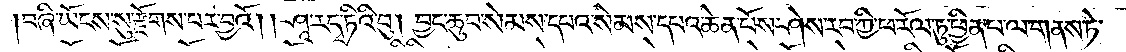བཞི་ཡོངས་སུ་རྫོགས་པར་བྱའོ། །ཤཱ་ར་དྭ་ཏིའི་བུ། བྱང་ཆུབ་སེམས་དཔའ་སེམས་དཔའ་ཆེན་པོས་ཤེས་རབ་ཀྱི་ཕ་རོལ་ཏུ་ཕྱིན་པ་ལ་གནས་ཏེ་
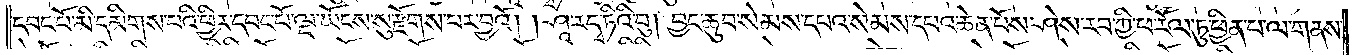དབང་པོ་མི་དམིགས་པའི་ཕྱིར་དབང་པོ་ལྔ་ཡོངས་སུ་རྫོགས་པར་བྱའོ། །ཤཱ་ར་དྭ་ཏིའི་བུ། བྱང་ཆུབ་སེམས་དཔའ་སེམས་དཔའ་ཆེན་པོས་ཤེས་རབ་ཀྱི་ཕ་རོལ་ཏུ་ཕྱིན་པ་ལ་གནས་
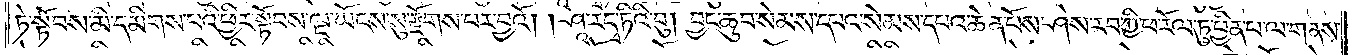ཏེ་སྟོབས་མི་དམིགས་པའི་ཕྱིར་སྟོབས་ལྔ་ཡོངས་སུ་རྫོགས་པར་བྱའོ། །ཤཱ་ར་དྭ་ཏིའི་བུ། བྱང་ཆུབ་སེམས་དཔའ་སེམས་དཔའ་ཆེན་པོས་ཤེས་རབ་ཀྱི་ཕ་རོལ་ཏུ་ཕྱིན་པ་ལ་གནས་
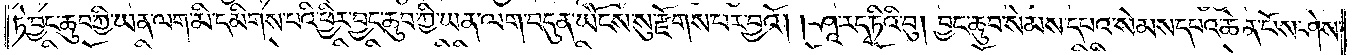ཏེ་བྱང་ཆུབ་ཀྱི་ཡན་ལག་མི་དམིགས་པའི་ཕྱིར་བྱང་ཆུབ་ཀྱི་ཡན་ལག་བདུན་ཡོངས་སུ་རྫོགས་པར་བྱའོ། །ཤཱ་ར་དྭ་ཏིའི་བུ། བྱང་ཆུབ་སེམས་དཔའ་སེམས་དཔའ་ཆེན་པོས་ཤེས་
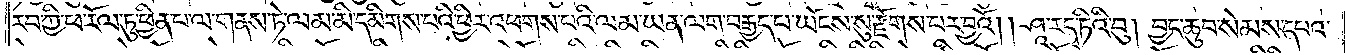རབ་ཀྱི་ཕ་རོལ་ཏུ་ཕྱིན་པ་ལ་གནས་ཏེ་ལམ་མི་དམིགས་པའི་ཕྱིར་འཕགས་པའི་ལམ་ཡན་ལག་བརྒྱད་པ་ཡོངས་སུ་རྫོགས་པར་བྱའོ། །ཤཱ་ར་དྭ་ཏིའི་བུ། བྱང་ཆུབ་སེམས་དཔའ་
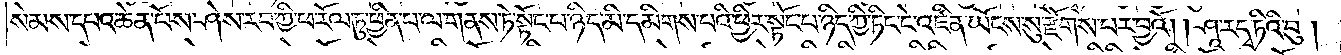སེམས་དཔའ་ཆེན་པོས་ཤེས་རབ་ཀྱི་ཕ་རོལ་ཏུ་ཕྱིན་པ་ལ་གནས་ཏེ་སྟོང་པ་ཉིད་མི་དམིགས་པའི་ཕྱིར་སྟོང་པ་ཉིད་ཀྱི་ཏིང་ངེ་འཛིན་ཡོངས་སུ་རྫོགས་པར་བྱའོ། །ཤཱ་ར་དྭ་ཏིའི་བུ།
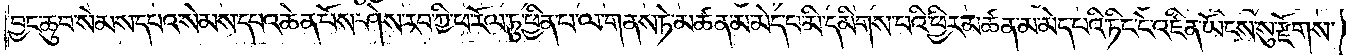བྱང་ཆུབ་སེམས་དཔའ་སེམས་དཔའ་ཆེན་པོས་ཤེས་རབ་ཀྱི་ཕ་རོལ་ཏུ་ཕྱིན་པ་ལ་གནས་ཏེ་མཚན་མ་མེད་པ་མི་དམིགས་པའི་ཕྱིར་མཚན་མ་མེད་པའི་ཏིང་ངེ་འཛིན་ཡོངས་སུ་རྫོགས་
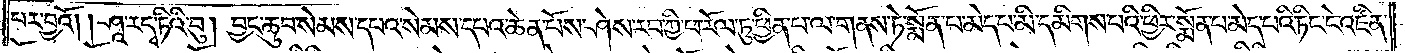པར་བྱའོ། །ཤཱ་ར་དྭ་ཏིའི་བུ། བྱང་ཆུབ་སེམས་དཔའ་སེམས་དཔའ་ཆེན་པོས་ཤེས་རབ་ཀྱི་ཕ་རོལ་ཏུ་ཕྱིན་པ་ལ་གནས་ཏེ་སྨོན་པ་མེད་པ་མི་དམིགས་པའི་ཕྱིར་སྨོན་པ་མེད་པའི་ཏིང་ངེ་འཛིན་
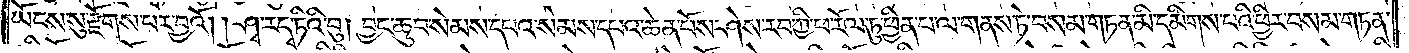ཡོངས་སུ་རྫོགས་པར་བྱའོ། །ཤྭ་ར་དྭ་ཏིའི་བུ། བྱང་ཆུབ་སེམས་དཔའ་སེམས་དཔའ་ཆེན་པོས་ཤེས་རབ་ཀྱི་ཕ་རོལ་ཏུ་ཕྱིན་པ་ལ་གནས་ཏེ་བསམ་གཏན་མི་དམིགས་པའི་ཕྱིར་བསམ་གཏན་
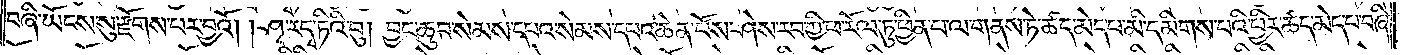བཞི་ཡོངས་སུ་རྫོགས་པར་བྱའོ། །ཤྭ་ར་དྭ་ཏིའི་བུ། བྱང་ཆུབ་སེམས་དཔའ་སེམས་དཔའ་ཆེན་པོས་ཤེས་རབ་ཀྱི་ཕ་རོལ་ཏུ་ཕྱིན་པ་ལ་གནས་ཏེ་ཚད་མེད་པ་མི་དམིགས་པའི་ཕྱིར་ཚད་མེད་པ་བཞི་
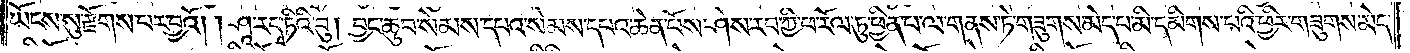ཡོངས་སུ་རྫོགས་པར་བྱའོ། །ཤཱ་ར་དྭ་ཏིའི་བུ། བྱང་ཆུབ་སེམས་དཔའ་སེམས་དཔའ་ཆེན་པོས་ཤེས་རབ་ཀྱི་ཕ་རོལ་ཏུ་ཕྱིན་པ་ལ་གནས་ཏེ་གཟུགས་མེད་པ་མི་དམིགས་པའི་ཕྱིར་གཟུགས་མེད་
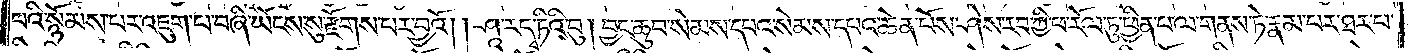པའི་སྙོམས་པར་འཇུག་པ་བཞི་ཡོངས་སུ་རྫོགས་པར་བྱའོ། །ཤཱ་ར་དྭ་ཏིའི་བུ། བྱང་ཆུབ་སེམས་དཔའ་སེམས་དཔའ་ཆེན་པོས་ཤེས་རབ་ཀྱི་ཕ་རོལ་ཏུ་ཕྱིན་པ་ལ་གནས་ཏེ་རྣམ་པར་ཐར་པ་
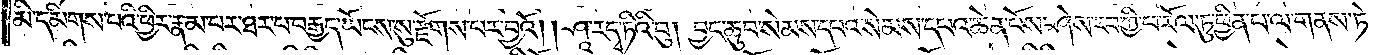མི་དམིགས་པའི་ཕྱིར་རྣམ་པར་ཐར་པ་བརྒྱད་ཡོངས་སུ་རྫོགས་པར་བྱའོ༎ ཤཱ་ར་དྭ་ཏིའི་བུ། བྱང་ཆུབ་སེམས་དཔའ་སེམས་དཔའ་ཆེན་པོས་ཤེས་རབ་ཀྱི་ཕ་རོལ་ཏུ་ཕྱིན་པ་ལ་གནས་ཏེ་
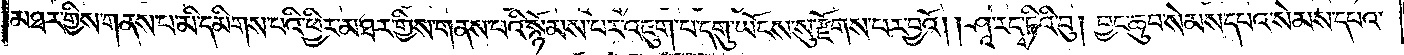མཐར་གྱིས་གནས་པ་མི་དམིགས་པའི་ཕྱིར་མཐར་གྱིས་གནས་པའི་སྙོམས་པར་འཇུག་པ་དགུ་ཡོངས་སུ་རྫོགས་པར་བྱའོ། །ཤཱ་ར་དྭ་ཏིའི་བུ། བྱང་ཆུབ་སེམས་དཔའ་སེམས་དཔའ་
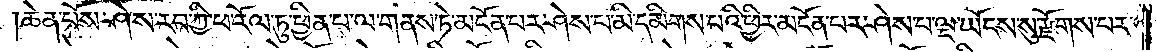ཆེན་པོས་ཤེས་རབ་ཀྱི་ཕ་རོལ་ཏུ་ཕྱིན་པ་ལ་གནས་ཏེ་མངོན་པར་ཤེས་པ་མི་དམིགས་པའི་ཕྱིར་མངོན་པར་ཤེས་པ་ལྔ་ཡོངས་སུ་རྫོགས་པར་
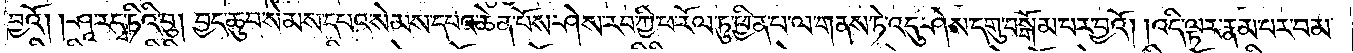བྱའོ། །ཤཱ་ར་དྭ་ཏིའི་བུ། བྱང་ཆུབ་སེམས་དཔའ་སེམས་དཔའ་ཆེན་པོས་ཤེས་རབ་ཀྱི་ཕ་རོལ་ཏུ་ཕྱིན་པ་ལ་གནས་ཏེ་འདུ་ཤེས་དགུ་བསྒོམ་པར་བྱའོ། །འདི་ལྟར་རྣམ་པར་བམ་
